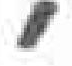1
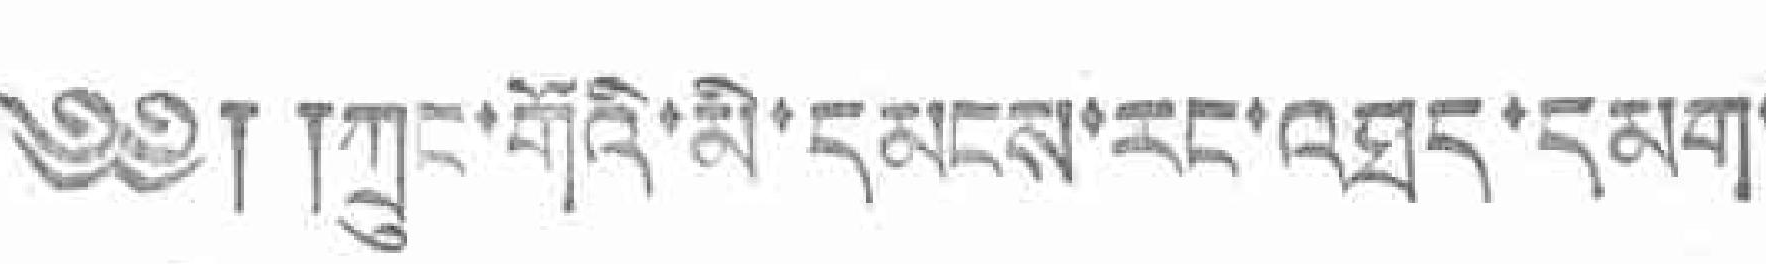༄༅། །ཀྲུང་གོའི་མི་དམངས་རང་འཐད་དམག་
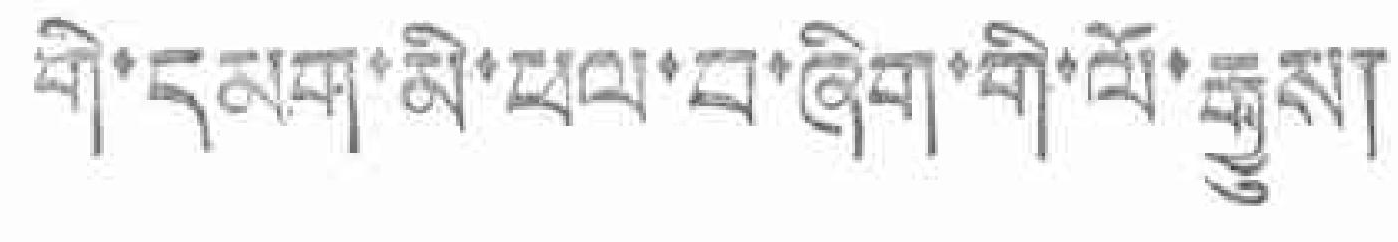གི་དམག་མི་ཕལ་བ་ཞིག་གི་ལོ་རྒྱུས།
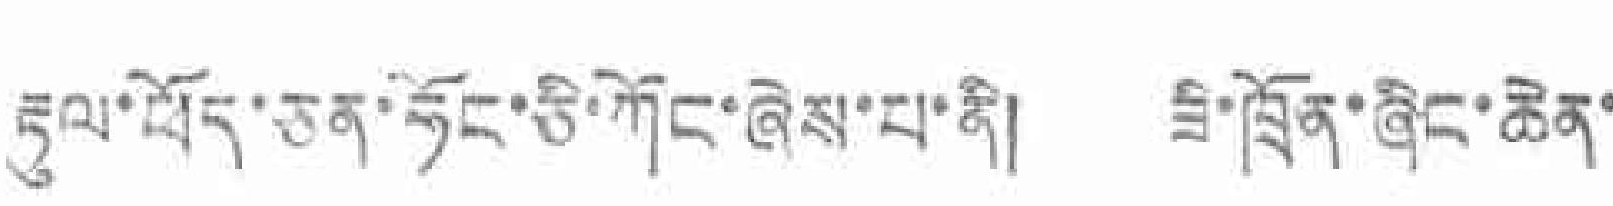རྟུལ་ཕོད་ཅན་ཧོང་ཅི་ཀོང་ཞེས་པ་ནི། ཟི་ཁྲོན་ཞིང་ཆེན་
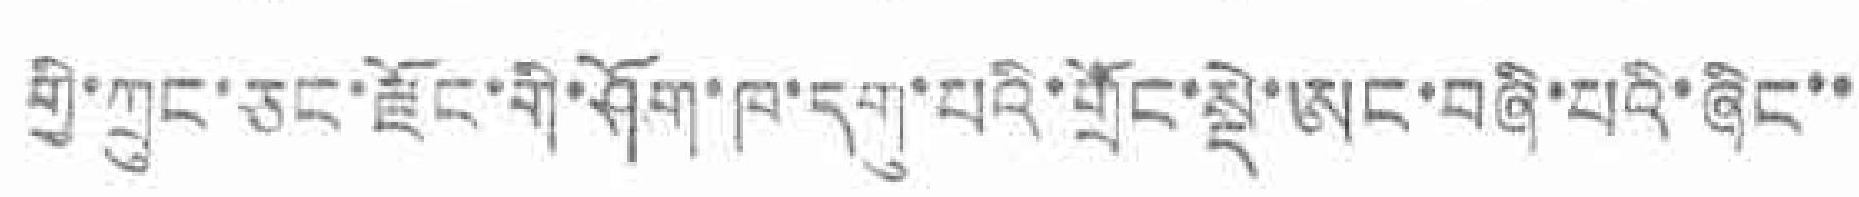གྱི་ཀྲུང་ཅང་ཇོང་གི་ཤོག་ཁ་དག་པའི་གྲོང་སྡེ་ཨང་བཞི་པའི་ཞིང་་
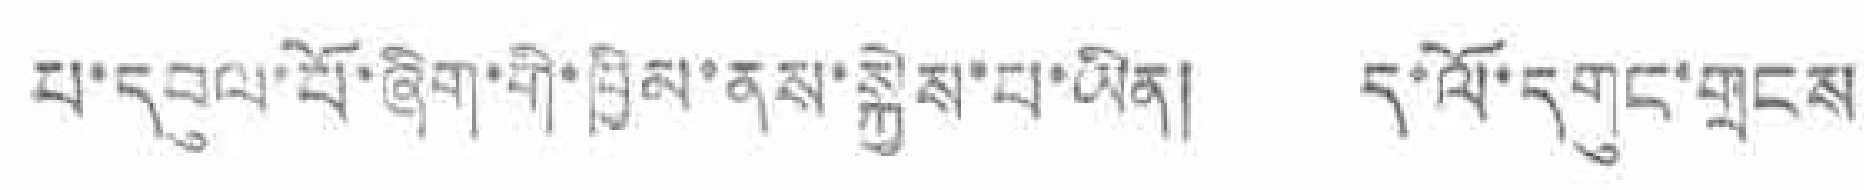པ་དབུལ་པོ་ཞིག་གི་ཁྱིམ་ནས་སྐྱེས་པ་ཡིན། ད་ལོ་དགང་གྲངས་
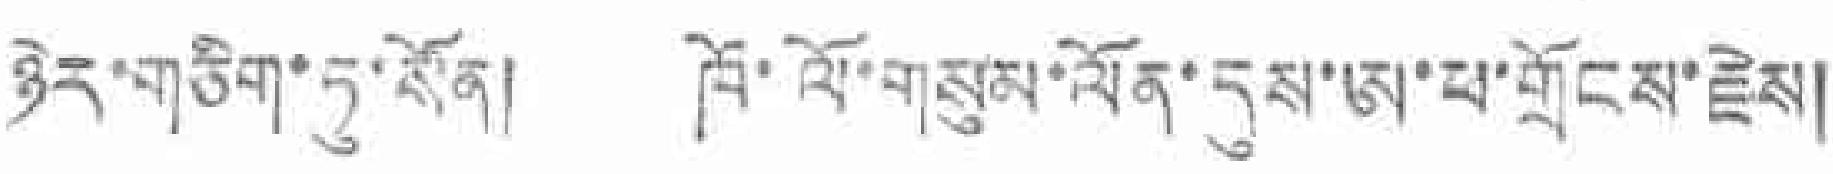ཉེད་གཅིག་ཏུ་སོན། ཁོ་ལོ་གསུམ་ལོན་དུས་ཨ་པ་གྲོངས་རྗེས།
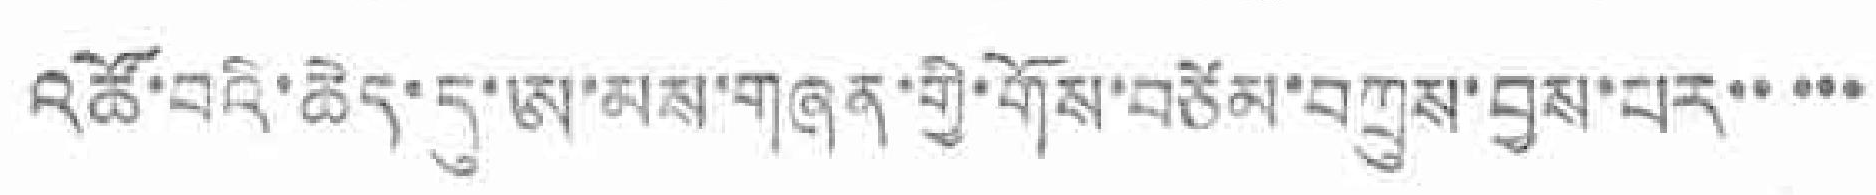འཚོ་བའི་ཆེད་དུ་ཨ་མས་གཞན་གྱི་གོས་བཙོམ་བཀྲས་བྱས་པར་་་་་
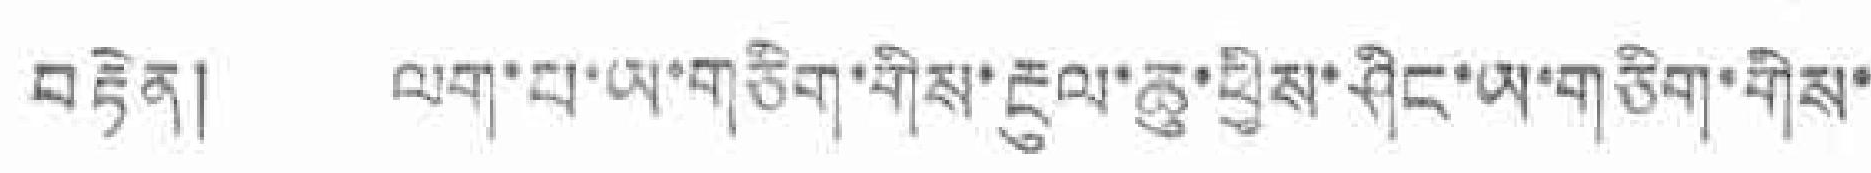བརྟེན། ལག་པ་ཡ་གཅིག་གིས་རྔུལ་ཆུ་ཕྱིས་ཤིང་ཡ་གཅིག་གིས་
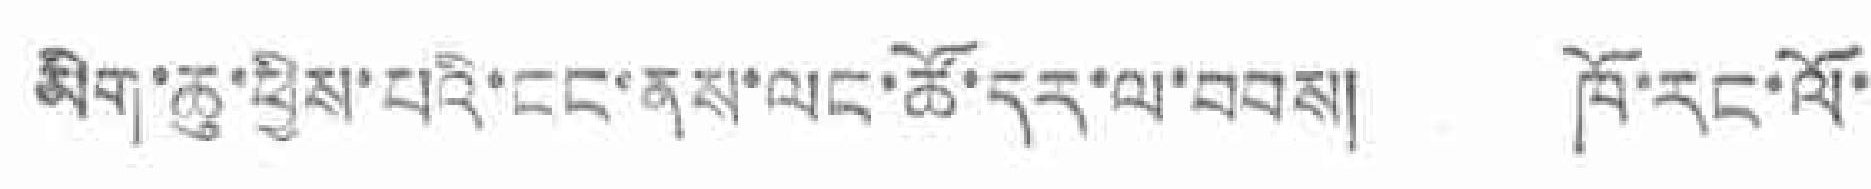མིག་ཆུ་ཕྱིས་པའི་ངང་ནས་ལང་ཚོ་དར་ལ་བབས། ཁོ་རང་ལོ་
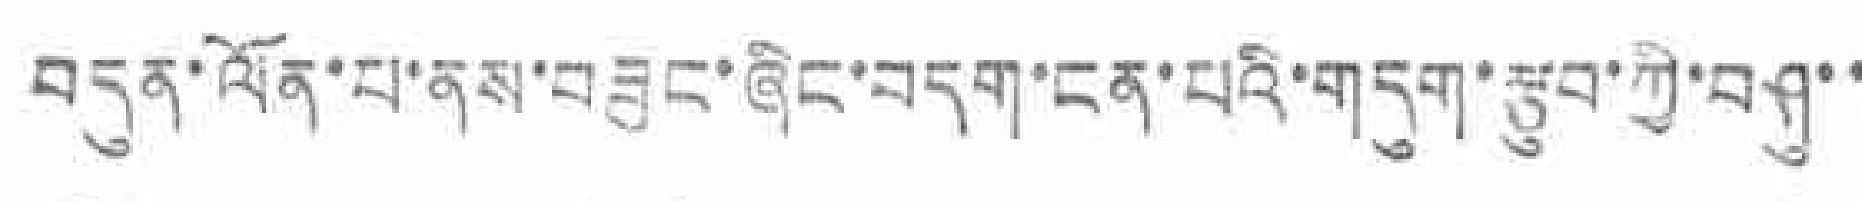བདུན་ལོན་པ་ནས་བཟུང་ཞིང་བདག་ངན་པའི་གདུག་རྩུབ་ཀྱི་བཤུ་་
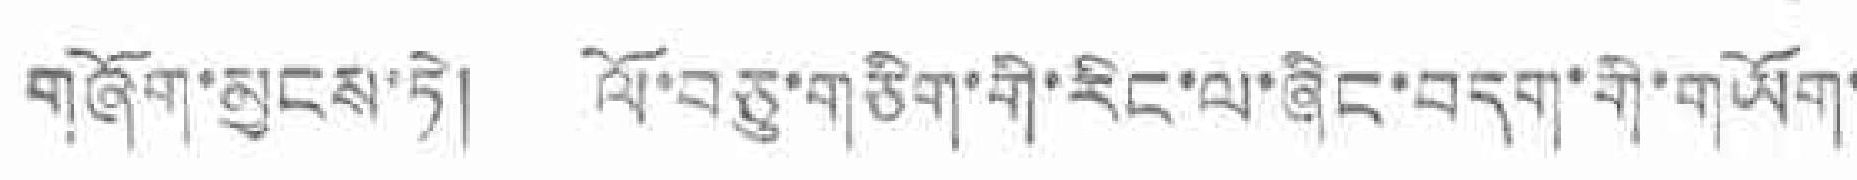གཞོག་མྱངས་ཏེ། ལོ་བཅུ་གཅིག་གི་རིང་ལ་ཞིང་བདག་གི་གཡོག་
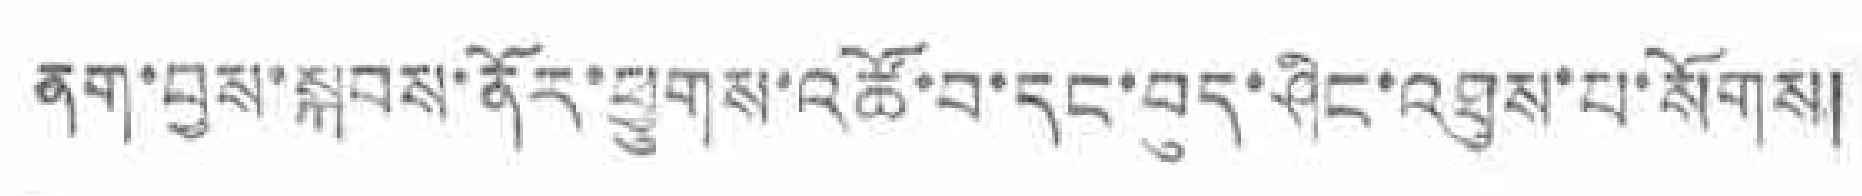ནག་བྱས་སྐབས་ནོད་ཕྱུགས་འཚོ་བ་དང་བུད་ཤིང་འཐུས་པ་སོགས།
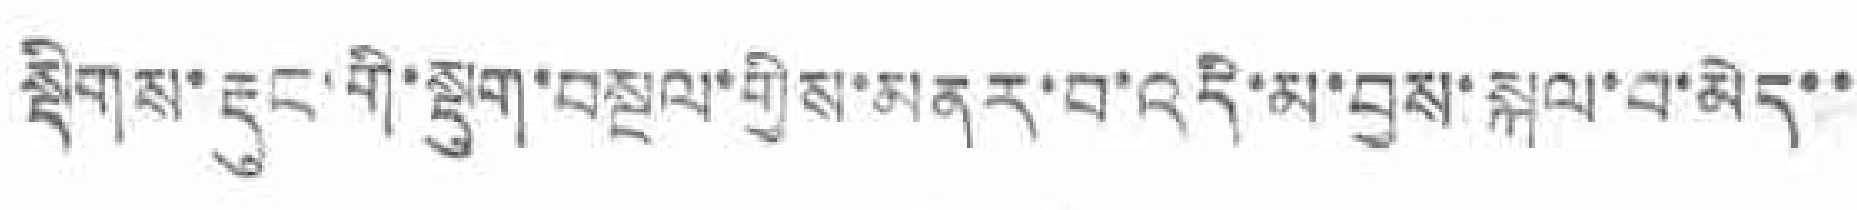སྡིགས་རྡུང་གི་སྡུག་བསྔལ་གྱིས་མནར་བ་འདི་མ་བྱས་སྐལ་བ་མེད་་
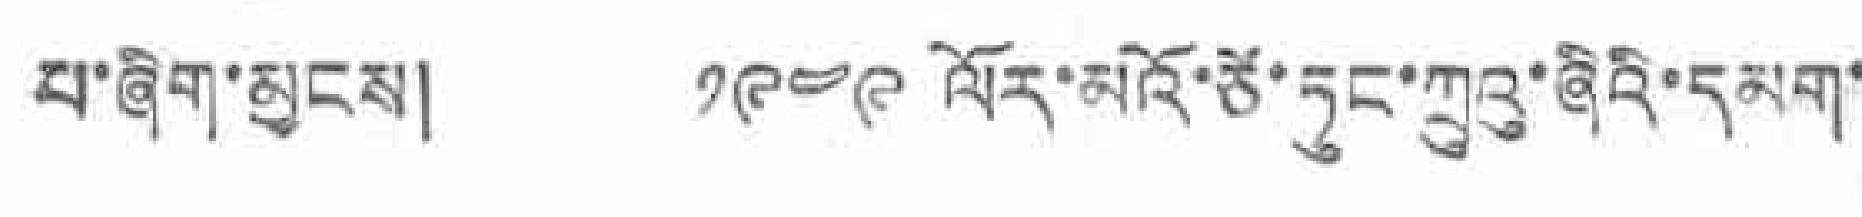པ་ཞིག་མྱངས། ༡༩༤༩་ ལོར་མའོ་ཙེ་ཏུང་ཀྲུའུ་ཞིའི་དམག་
